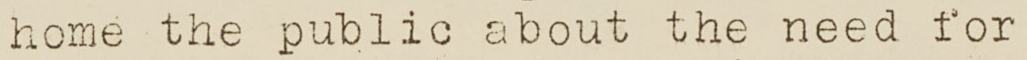home the public about the need for
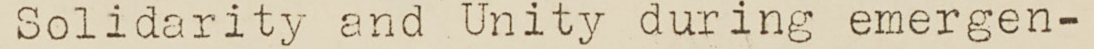Solidarity and Unity during emergen-
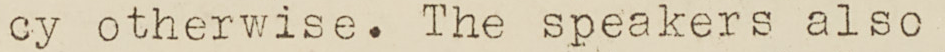cy otherwise. The speakers also
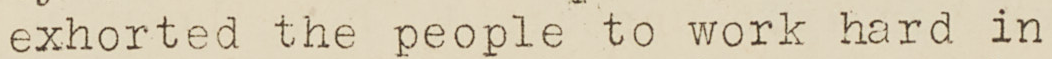exhorted the people to work hard in
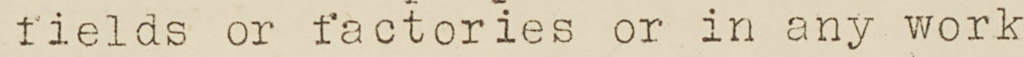fields or factories or in any work
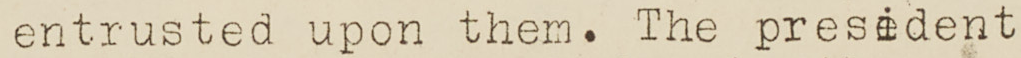entrusted upon them. The president
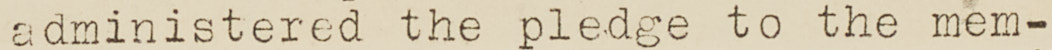administered the pledge to the mem-
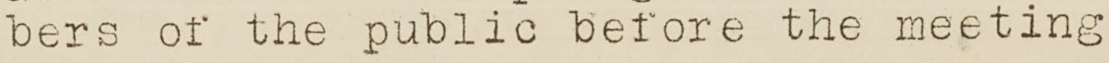bers of the public before the meeting
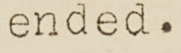ended.
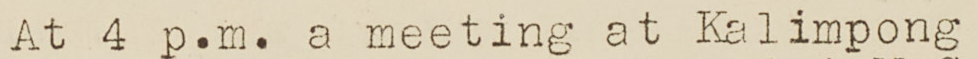At 4 p.m. a meeting at Kalimpong
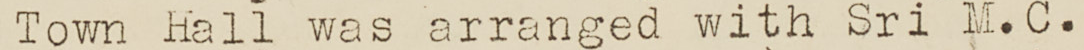Town Hall was arranged with Sri M.C.
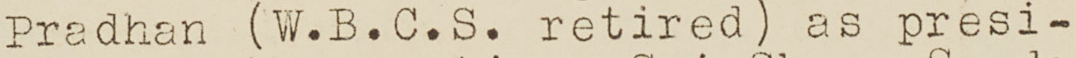Pradhan (W.B.C.S. retired) as presi-
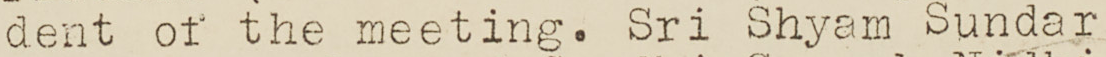dent of the meeting. Sri Shyam Sundar
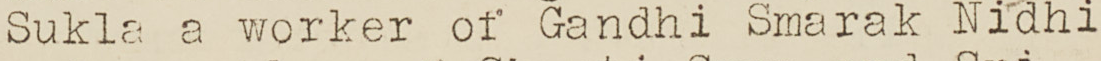Sukla a worker of Gandhi Smarak Nidhi
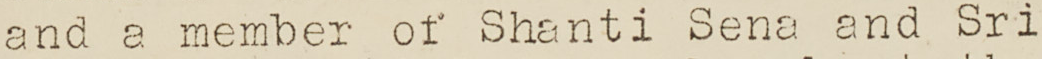and a member of Shanti Sena and Sri
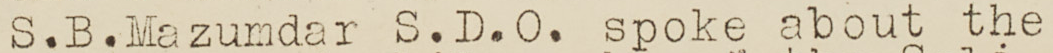S.B.Mazundar S.D.O. spoke about the
